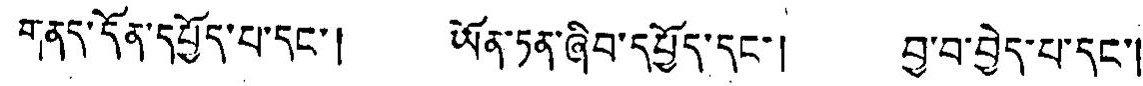གནད་དོན་དཔྱོད་པ་དང་། ཡོན་ཏན་ཞིབ་དཔྱོད་དང་། བྱ་བ་བྱེད་པ་དང་།
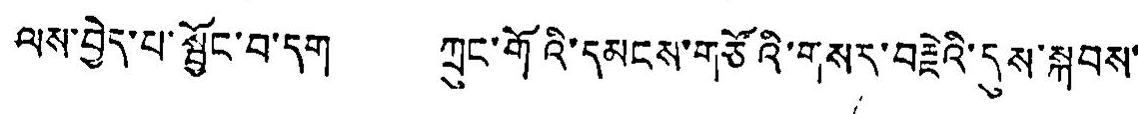ལས་བྱེད་པ་སྦྱོང་བ་དག ཀྲུང་གོའི་དམངས་གཙོའི་གསར་བརྗེའི་དུས་སྐབས་
